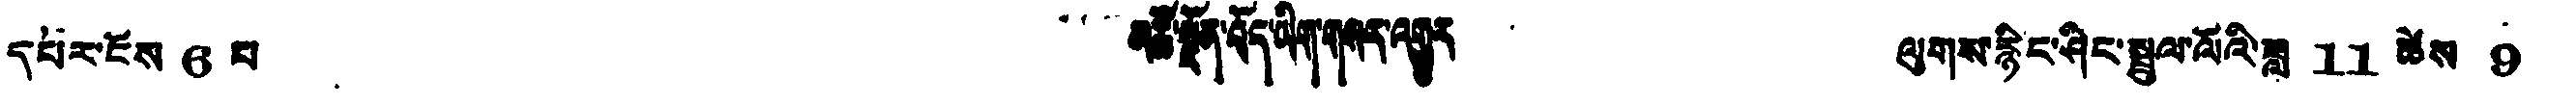དཔར་ངོས 6 པ མཚོ་སྔོན་བོད་ཡིག་གསར་འགྱུར ལུགས་རྙིང་ཤིང་སྦྲུལ་ལོའི་ཟླ 11 ཚེས 9
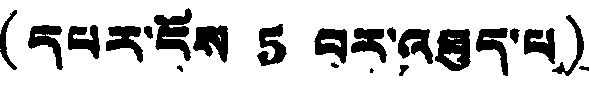(དཔར་ངོས 5 བར་འཐུད་པ)
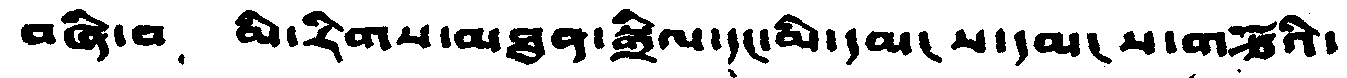བཞི་བ、 མི་རིགས་མཐུན་སྒྲིལ་དང་མི་དམངས་དམངས་གཙོའི་
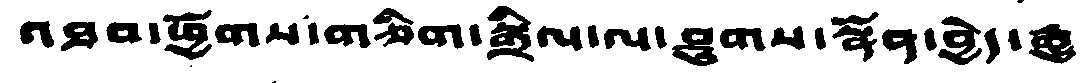འཐབ་ཕྱོགས་གཅིག་སྒྲིལ་ལ་ཤུགས་སྣོན་བྱེད་རྒྱུ
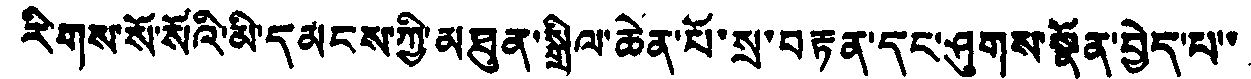རིགས་སོ་སོའི་མི་དམངས་ཀྱི་མཐུན་སྒྲིལ་ཆེན་པོ་སྲ་བརྟན་དང་ཤུགས་སྣོན་བྱེད་པ་་
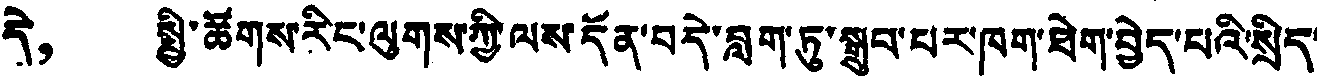དེ་， སྤྱི་ཚོགས་རིང་ལུགས་ཀྱི་ལས་དོན་བདེ་བླག་ཏུ་སྒྲུབ་པར་ཁག་ཐེག་བྱེད་པའི་སྲིད་
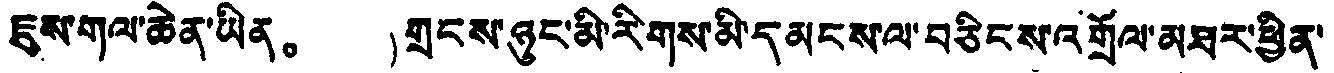ཇུས་གལ་ཆེན་ཡིན。 གྲངས་ཉུང་མི་རིགས་མི་དམངས་ལ་བཅིངས་འགྲོལ་མཐར་ཕྱིན་
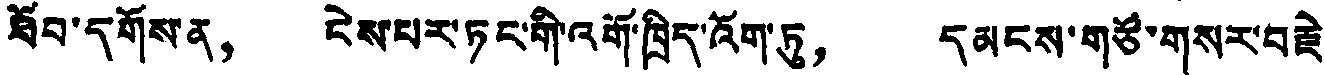ཐོབ་དགོས་ན， ངེས་པར་ཏང་གི་འགོ་ཁྲིད་འོག་ཏུ， དམངས་གཙོ་གསར་བརྗེ
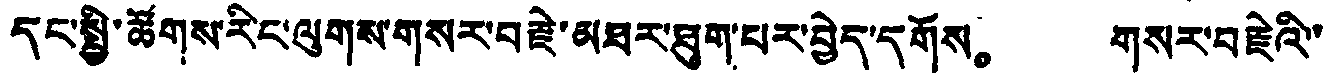དང་སྤྱི་ཚོགས་རིང་ལུགས་གསར་བརྗེ་མཐར་ཐུག་པར་བྱེད་དགོས。 གསར་བརྗེའི་་
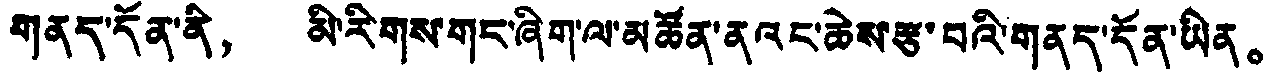གནད་དོན་ནི， མི་རིགས་གང་ཞིག་ལ་མཚོན་ནའང་ཆེས་རྩ་བའི་གནད་དོན་ཡིན。
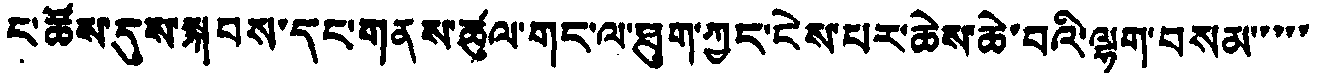ང་ཚོས་དུས་སྐབས་དང་གནས་ཚུལ་གང་ལ་ཐུག་ཀྱང་ངེས་པར་ཆེས་ཆེ་བའི་ལྷག་བསམ་་་་་
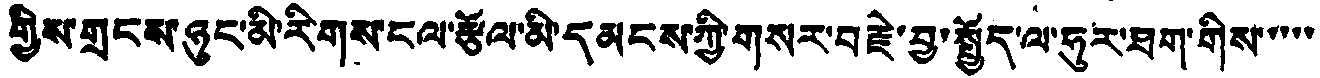གྱིས་གྲངས་ཉུང་མི་རིགས་ངལ་རྩོལ་མི་དམངས་ཀྱི་གསར་བརྗེ་བྱ་སྤྱོད་ལ་ཧུར་ཐག་གིས་་་་་
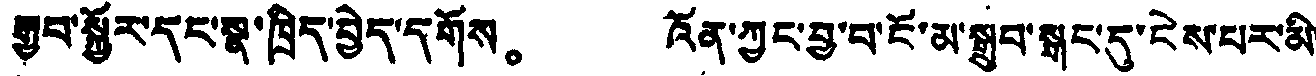རྒྱབ་སྐྱོར་དང་སྣ་ཁྲིད་བྱེད་དགོས。 འོན་ཀྱང་བྱ་བ་ངོ་མ་སྒྲུབ་སྒང་དུ་ངེས་པར་མི་
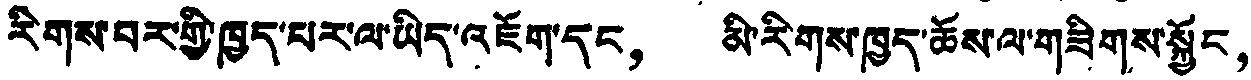རིགས་བར་གྱི་ཁྱད་པར་ལ་ཡིད་འཇོག་དང， མི་རིགས་ཁྱད་ཆོས་ལ་གཟིགས་སྐྱོང，
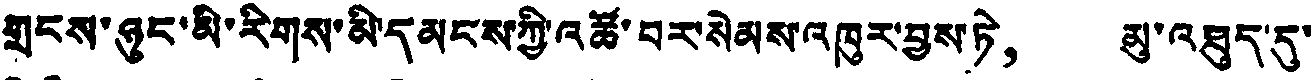གྲངས་ཉུང་མི་རིགས་མི་དམངས་ཀྱི་འཚོ་བར་སེམས་འཁུར་བྱས་ཏེ， མུ་འཐུད་དུ་
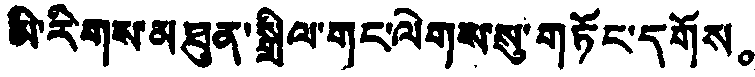མི་རིགས་མཐུན་སྒྲིལ་གང་ལེགས་སུ་གཏོང་དགོས。
